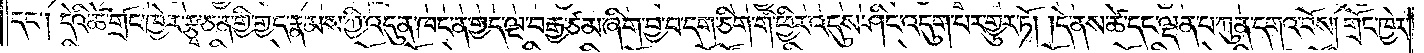དང༌། དེའི་ཚེ་གྲོང་ཁྱེར་རྩྭ་ཅན་གྱི་གྱད་རྣམས་ཀྱི་འདུན་ཁང་ན་གྱད་ལྔ་བརྒྱ་ཙམ་ཞིག་བྱ་བ་དག་ཅིག་གི་ཕྱིར་འདུས་ཤིང་འདུག་པར་གྱུར་ཏོ། །དེ་ནས་ཚེ་དང་ལྡན་པ་ཀུན་དགའ་བོས། གྲོང་ཁྱེར་
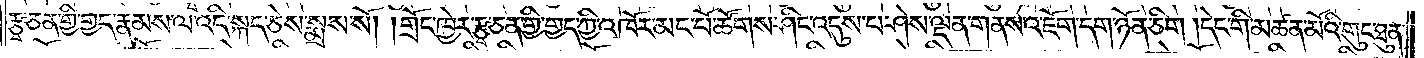རྩྭ་ཅན་གྱི་གྱད་རྣམས་ལ་འདི་སྐད་ཅེས་སྨྲས་སོ། །གྲོང་ཁྱེར་རྩྭ་ཅན་གྱི་གྱད་ཀྱི་འཁོར་མང་པོ་ཚོགས་ཤིང་འདུས་པ་ཤེས་ལྡན་གནས་འཇོག་དག་ཉོན་ཅིག །དེང་གི་མཚན་མོའི་གྲུང་ཐུན་
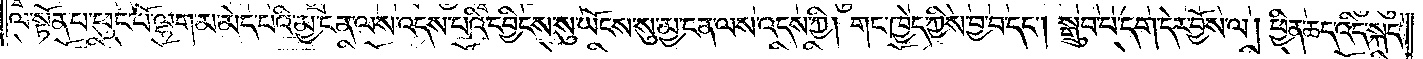ལ་སྟོན་པ་ཕུང་པོ་ལྷག་མ་མེད་པའི་མྱ་ངན་ལས་འདས་པའི་དབྱིངས་སུ་ཡོངས་སུ་མྱ་ངན་ལས་འདས་ཀྱི། གང་ཁྱེད་ཀྱིས་བྱ་བ་དང༌། སྒྲུབ་པ་དག་དེར་བྱོས་ལ། ཕྱིན་ཆད་འདི་སྐད་
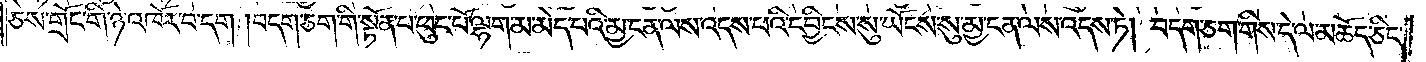ཅེས་གྲོང་གི་ཉེ་འཁོར་བ་དག །བདག་ཅག་གི་སྟོན་པ་ཕུང་པོ་ལྷག་མ་མེད་པའི་མྱ་ངན་ལས་འདས་པའི་དབྱིངས་སུ་ཡོངས་སུ་མྱ་ངན་ལས་འདས་ཏེ། བདག་ཅག་གིས་དེ་ལ་མཆོད་ཅིང་
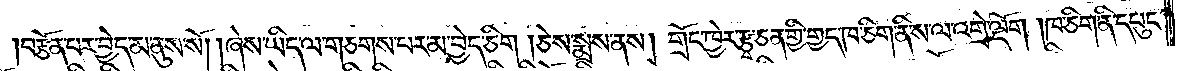།བརྩོན་པར་བྱེད་མ་ནུས་སོ། །ཞེས་ཡིད་ལ་གཅགས་པར་མ་བྱེད་ཅིག །ཅེས་སྨྲས་ནས། གྲོང་ཁྱེར་རྩྭ་ཅན་གྱི་གྱད་ཁ་ཅིག་ནིས་ལ་འགྲེ་ལྡོག །ཁ་ཅིག་ནི་དཔུང་
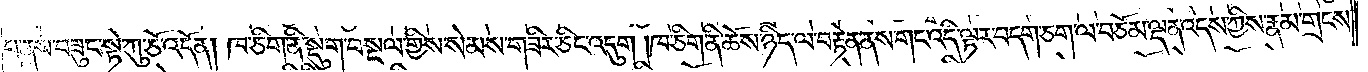པ་ནས་བཟུང་སྟེ་ཀུ་ཅོ་འདོན། ཁ་ཅིག་ནི་སྡུག་བསྔལ་གྱིས་སེམས་གཟིར་ཅིང་འདུག །ཁ་ཅིག་ནི་ཆོས་ཉིད་ལ་བརྟེན་ནས་གང་འདི་ལྟར་བདག་ཅག་ལ་བཅོམ་ལྡན་འདས་ཀྱིས་རྣམ་གྲངས་
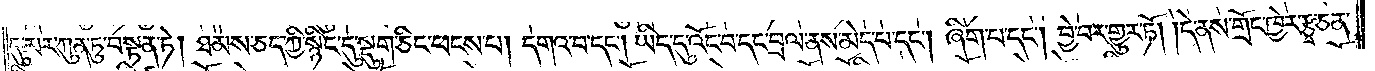དུ་མར་ཀུན་ཏུ་བསྟན་ཏེ། ཐམས་ཅད་ཀྱི་སྙིང་དུ་སྡུག་ཅིང་ཕངས་པ། དགའ་བ་དང༌། ཡིད་དུ་འོང་བ་དང་བྲལ་ནས་མེད་པ་དང༌། ཞིག་པ་དང༌། བྱེ་བར་གྱུར་ཏོ། །དེ་ནས་གྲོང་ཁྱེར་རྩྭ་ཅན་
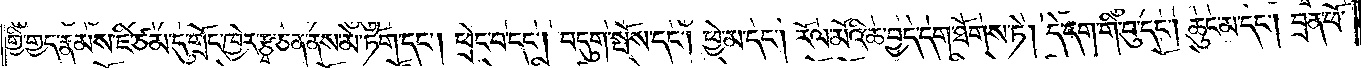གྱི་གྱད་རྣམས་ཇི་ཙམ་དུ་གྲོང་ཁྱེར་རྩྭ་ཅན་ནས་མེ་ཏོག་དང༌། ཕྲེང་བ་དང༌། བདུག་སྤོས་དང༌། ཕྱེ་མ་དང༌། རོལ་མོའི་ཆ་བྱད་དག་ཐོགས་ཏེ། དེ་དག་གི་བུ་དང༌། ཆུང་མ་དང༌། བྲན་ཕོ་
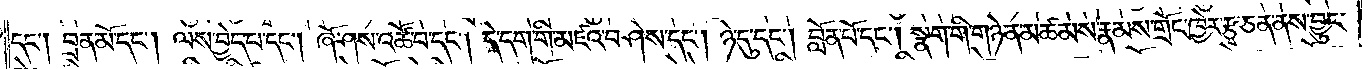དང༌། བྲན་མོ་དང༌། ལས་བྱེད་པ་དང༌། ཞོ་ཤས་འཚོ་བ་དང༌། དེ་དག་གི་མཛའ་བཤེས་དང༌། ཉེ་དུ་དང༌། བློན་པོ་དང༌། སྣག་གི་གཉེན་མཚམས་རྣམས་གྲོང་ཁྱེར་རྩྭ་ཅན་ནས་བྱུང་
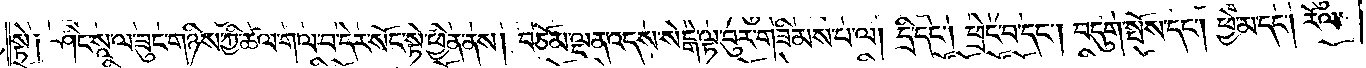སྟེ༑ ཤིང་སཱ་ལ་ཟུང་གཉིས་ཀྱི་ཚལ་ག་ལ་བ་དེར་སོང་སྟེ་ཕྱིན་ནས། བཅོམ་ལྡན་འདས་སེངྒེ་ལྟ་བུར་གཟིམས་པ་ལ། དྲི་དང༌། ཕྲེང་བ་དང༌། བདུག་སྤོས་དང༌། ཕྱེ་མ་དང༌། རོལ་
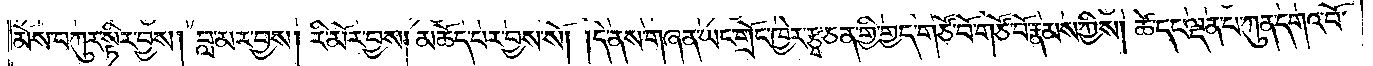མོས་བཀུར་སྟིར་བྱས། བླ་མར་བྱས། རི་མོར་བྱས། མཆོད་པར་བྱས་སོ། །དེ་ནས་གཞན་ཡང་གྲོང་ཁྱེར་རྩྭ་ཅན་གྱི་གྱད་གཙོ་བོ་གཙོ་བོ་རྣམས་ཀྱིས། ཚེ་དང་ལྡན་པ་ཀུན་དགའ་བོ་
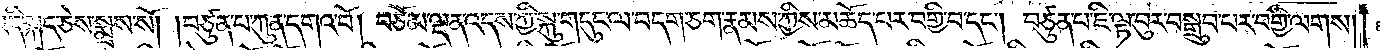ལ་འདི་སྐད་ཅེས་སྨྲས་སོ། །བཙུན་པ་ཀུན་དགའ་བོ། བཅོམ་ལྡན་འདས་ཀྱི་སྐུ་གདུང་ལ་བདག་ཅག་རྣམས་ཀྱིས་མཆོད་པར་བགྱི་བ་དང༌། བཙུན་པ་ཇི་ལྟ་བུར་བསྒྲུབ་པར་བགྱི་ལགས།
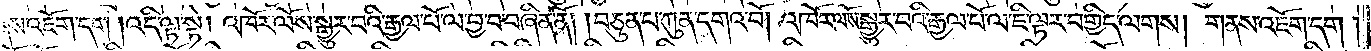གནས་འཇོག་དག །འདི་ལྟ་སྟེ། འཁོར་ལོས་སྒྱུར་བའི་རྒྱལ་པོ་ལ་བྱ་བ་བཞིན་ནོ། །བཙུན་པ་ཀུན་དགའ་བོ། འཁོར་ལོས་སྒྱུར་བའི་རྒྱལ་པོ་ལ་ཇི་ལྟར་བགྱིད་ལགས། གནས་འཇོག་དག།
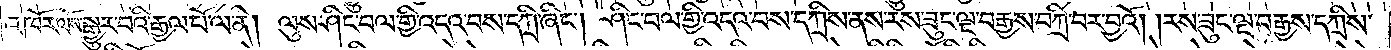འཁོར་ལོས་སྒྱུར་བའི་རྒྱལ་པོ་ལ་ནི། ལུས་ཤིང་བལ་གྱི་འདའ་བས་དཀྲི་ཞིང༌། ཤིང་བལ་གྱི་འདའ་བས་དཀྲིས་ནས་རས་ཟུང་ལྔ་བརྒྱས་བཀྲི་བར་བྱའོ། །རས་ཟུང་ལྔ་བརྒྱས་དཀྲིས་
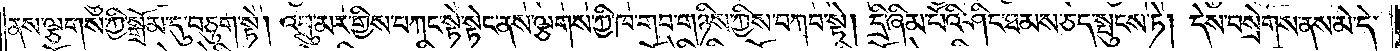ནས་ལྕགས་ཀྱི་སྒྲོམ་དུ་བཅུག་སྟེ། འབྲུ་མར་གྱིས་བཀང་སྟེ་སྟེང་ནས་ལྕགས་ཀྱི་ཁ་གབ་གཉིས་ཀྱིས་བཀབ་སྟེ། དྲི་ཞིམ་པོའི་ཤིང་ཐམས་ཅད་སྤུངས་ཏེ། དེས་བསྲེགས་ནས་མེ་དེ་
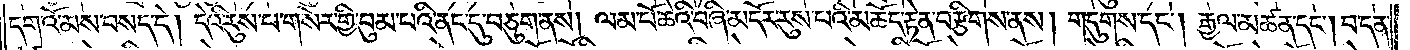དག་འོ་མས་བསད་དེ། དེའི་རུས་པ་གསེར་གྱི་བུམ་པའི་ནང་དུ་བཅུག་ནས། ལམ་པོ་ཆེའི་བཞི་མདོར་རུས་པའི་མཆོད་རྟེན་བརྩིགས་ནས། གདུགས་དང༌། རྒྱལ་མཚན་དང༌། བ་དན་
